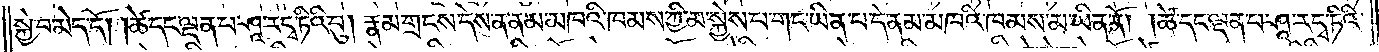སྐྱེ་བ་མེད་དོ། །ཚེ་དང་ལྡན་པ་ཤཱ་ར་དྭ་ཏིའི་བུ། རྣམ་གྲངས་དེས་ན་ནམ་མཁའི་ཁམས་ཀྱི་མ་སྐྱེས་པ་གང་ཡིན་པ་དེ་ནམ་མཁའི་ཁམས་མ་ཡིན་ནོ། །ཚེ་དང་ལྡན་པ་ཤཱ་ར་དྭ་ཏིའི་
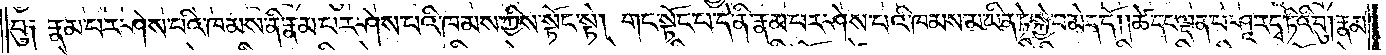བུ། རྣམ་པར་ཤེས་པའི་ཁམས་ནི་རྣམ་པར་ཤེས་པའི་ཁམས་ཀྱིས་སྟོང་སྟེ། གང་སྟོང་པ་དེ་ནི་རྣམ་པར་ཤེས་པའི་ཁམས་མ་ཡིན་ཏེ་སྐྱེ་བ་མེད་དོ། །ཚེ་དང་ལྡན་པ་ཤཱ་ར་དྭ་ཏིའི་བུ། རྣམ་
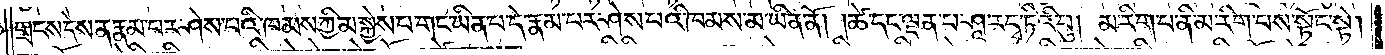གྲངས་དེས་ན་རྣམ་པར་ཤེས་པའི་ཁམས་ཀྱི་མ་སྐྱེས་པ་གང་ཡིན་པ་དེ་རྣམ་པར་ཤེས་པའི་ཁམས་མ་ཡིན་ནོ། །ཚེ་དང་ལྡན་པ་ཤཱ་ར་དྭ་ཏིའི་བུ། མ་རིག་པ་ནི་མ་རིག་པས་སྟོང་སྟེ།
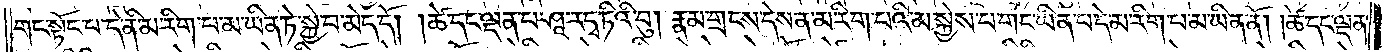གང་སྟོང་པ་དེ་ནི་མ་རིག་པ་མ་ཡིན་ཏེ་སྐྱེ་བ་མེད་དོ། །ཚེ་དང་ལྡན་པ་ཤཱ་ར་དྭ་ཏིའི་བུ། རྣམ་གྲངས་དེས་ན་མ་རིག་པའི་མ་སྐྱེས་པ་གང་ཡིན་པ་དེ་མ་རིག་པ་མ་ཡིན་ནོ། །ཚེ་དང་ལྡན་
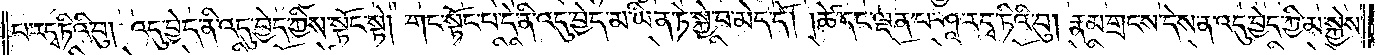པ་ར་དྭ་ཏིའི་བུ། འདུ་བྱེད་ནི་འདུ་བྱེད་ཀྱིས་སྟོང་སྟེ། གང་སྟོང་པ་དེ་ནི་འདུ་བྱེད་མ་ཡིན་ཏེ་སྐྱེ་བ་མེད་དོ། །ཚེ་དང་ལྡན་པ་ཤཱ་ར་དྭ་ཏིའི་བུ། རྣམ་གྲངས་དེས་ན་འདུ་བྱེད་ཀྱི་མ་སྐྱེས་
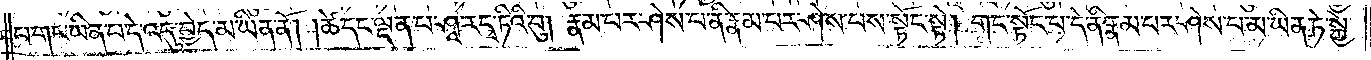པ་གང་ཡིན་པ་དེའི་འདུ་བྱེད་མ་ཡིན་ནོ། །ཚེ་དང་ལྡན་པ་ཤཱ་ར་དྭ་ཏིའི་བུ། རྣམ་པར་ཤེས་པ་ནི་རྣམ་པར་ཤེས་པས་སྟོང་སྟེ། གང་སྟོང་པ་དེ་ནི་རྣམ་པར་ཤེས་པ་མ་ཡིན་ཏེ་སྐྱེ་
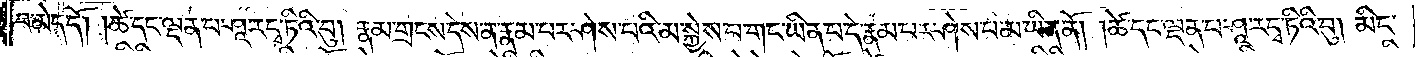བ་མེད་དོ། །ཚེ་དང་ལྡན་པ་ཤཱ་ར་དྭ་ཏིའི་བུ། རྣམ་གྲངས་དེས་ན་རྣམ་པར་ཤེས་པའི་མ་སྐྱེས་པ་གང་ཡིན་པ་དེ་རྣམ་པར་ཤེས་པ་མ་ཡིན་ནོ། །ཚེ་དང་ལྡན་པ་ཤཱ་ར་དྭ་ཏིའི་བུ། མིང་
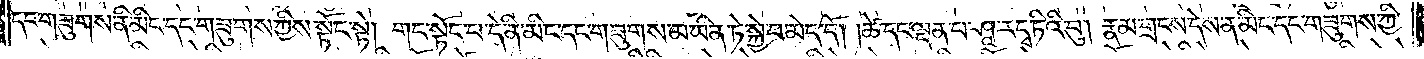དང་གཟུགས་ནི་མིང་དང་གཟུགས་ཀྱིས་སྟོང་སྟེ། གང་སྟོང་པ་དེ་ནི་མིང་དང་གཟུགས་མ་ཡིན་ཏེ་སྐྱེ་བ་མེད་དོ། །ཚེ་དང་ལྡན་པ་ཤཱ་ར་དྭ་ཏིའི་བུ། རྣམ་གྲངས་དེས་ན་མིང་དང་གཟུགས་ཀྱི་
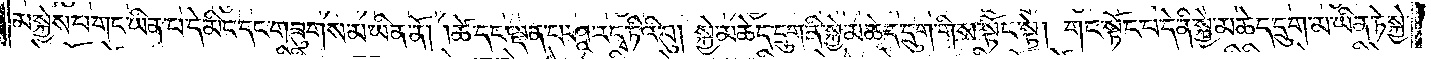མ་སྐྱེས་པ་གང་ཡིན་པ་དེ་མིང་དང་གཟུགས་མ་ཡིན་ནོ། །ཚེ་དང་ལྡན་པ་ཤཱ་ར་དྭ་ཏིའི་བུ། སྐྱེ་མཆེད་དྲུག་ནི་སྐྱེ་མཆེད་དྲུག་གིས་སྟོང་སྟེ། གང་སྟོང་པ་དེ་ནི་སྐྱེ་མཆེད་དྲུག་མ་ཡིན་ཏེ་སྐྱེ་
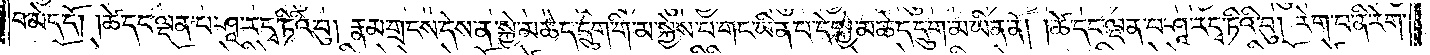བ་མེད་དོ། །ཚེ་དང་ལྡན་པ་ཤཱ་ར་དྭ་ཏིའི་བུ། རྣམ་གྲངས་དེས་ན་སྐྱེ་མཆེད་དྲུག་གི་མ་སྐྱེས་བ་གང་ཡིན་པ་དེ་སྐྱེ་མཆེད་དྲུག་མ་ཡིན་ནོ། །ཚེ་དང་ལྡན་པ་ཤཱ་ར་དྭ་ཏིའི་བུ། རེག་པ་ནི་རེག་
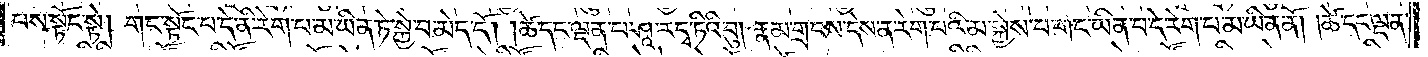པས་སྟོང་སྟེ། གང་སྟོང་པ་དེ་ནི་རེག་པ་མ་ཡིན་ཏེ་སྐྱེ་བ་མེད་དོ། །ཚེ་དང་ལྡན་པ་ཤཱ་ར་དྭ་ཏིའི་བུ། རྣམ་གྲངས་དེས་ན་རེག་པའི་མ་སྐྱེས་པ་གང་ཡིན་པ་དེ་རེག་པ་མ་ཡིན་ནོ། །ཚེ་དང་ལྡན་
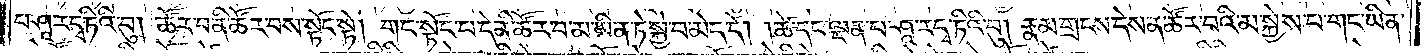པ་ཤཱ་ར་དྭ་ཏིའི་བུ། ཚོར་བ་ནི་ཚོར་བས་སྟོང་སྟེ། གང་སྟོང་པ་དེ་ནི་ཚོར་བ་མ་ཡིན་ཏེ་སྐྱེ་བ་མེད་དོ། །ཚེ་དང་ལྡན་པ་ཤཱ་ར་དྭ་ཏིའི་བུ། རྣམ་གྲངས་དེས་ན་ཚོར་བའི་མ་སྐྱེས་པ་གང་ཡིན་
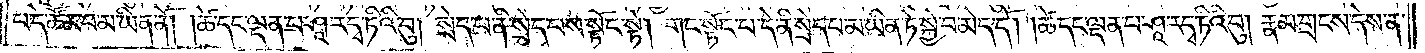པ་དེ་ཚོར་བ་མ་ཡིན་ནོ། །ཚེ་དང་ལྡན་པ་ཤཱ་ར་དྭ་ཏིའི་བུ། སྲེད་པ་ནི་སྲེད་པས་སྟོང་སྟེ། གང་སྟོང་པ་དེ་ནི་སྲེད་པ་མ་ཡིན་ཏེ་སྐྱེ་བ་མེད་དོ། །ཚེ་དང་ལྡན་པ་ཤཱ་ར་དྭ་ཏིའི་བུ། རྣམ་གྲངས་དེས་ན་
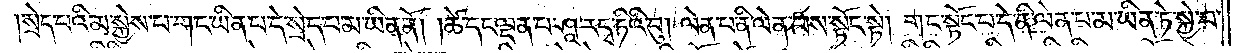སྲེད་པའི་མ་སྐྱེས་པ་གང་ཡིན་པ་དེ་སྲེད་པ་མ་ཡིན་ནོ། །ཚེ་དང་ལྡན་པ་ཤཱ་ར་དྭ་ཏིའི་བུ། ལེན་པ་ནི་ལེན་པས་སྟོང་སྟེ། གང་སྟོང་པ་དེ་ནི་ལེན་པ་མ་ཡིན་ཏེ་སྐྱེ་བ་
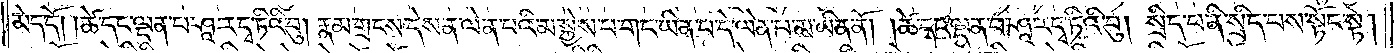མེད་དོ། །ཚེ་དང་ལྡན་པ་ཤཱ་ར་དྭ་ཏིའི་བུ། རྣམ་གྲངས་དེས་ན་ལེན་པའི་མ་སྐྱེས་པ་གང་ཡིན་པ་དེ་ལེན་པ་མ་ཡིན་ནོ། །ཚེ་དང་ལྡན་པ་ཤཱ་ར་དྭ་ཏིའི་བུ། སྲིད་པ་ནི་སྲིད་པས་སྟོང་སྟེ།
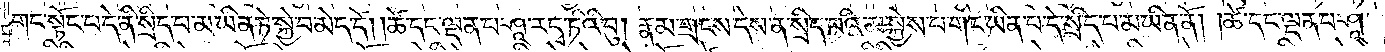གང་སྟོང་པ་དེ་ནི་སྲིད་པ་མ་ཡིན་ཏེ་སྐྱེ་བ་མེད་དོ། །ཚེ་དང་ལྡན་པ་ཤཱ་ར་དྭ་ཏིའི་བུ། རྣམ་གྲངས་དེས་ན་སྲིད་པའི་མ་སྐྱེས་པ་གང་ཡིན་པ་དེ་སྲིད་པ་མ་ཡིན་ནོ། ཚེ་དང་ལྡན་པ་ཤཱ་
